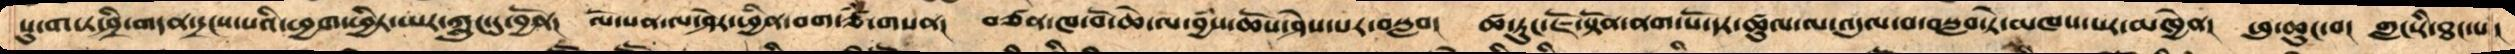སུ་ག་ཏ་ཤྲཱི་གདན་དྲངས་པའི་ཕྱག་ཕྱིར་ཡར་ཀླུང་དུ་བྱོན།  ལོ་པན་ལ་ཤེར་ཕྱིན་བག་ཙཾ་གསན།  བཙན་ཁ་བོ་ཆེ་ལ་་བྱཾས་ཆོས་ཤེས་པར་བསླབ།  ཚ་རུང་ཇོ་སྟོན་ནག་པོ་དར་ཚུལ་ལ་འདུལ་བ་བསླབ་ཏེ་མཁས་པར་མཁྱེན།   ཕུ་ཆུང་བ།  གླང་རི་ཐང་པ།
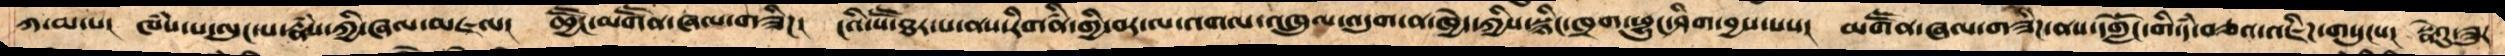ཀ་མ་པ།  ཁཾས་པ་ལུང་པ་རྣཾས་ཀྱི་ཞལ་མཇལ།  ཆྱཽང་མགཽན་ཞལ་གཟིཌ།  ངའི་སཽ་ཐར་པ་ནས་རིགཛིན་གྱི་བར་ལ་འགལ་འཁྲུལ་འདུག་ན་ཁྱེད་ཀྱིས་སྙིང་ཁྲག་ཕྱུང་ཤིག་བྱས་པས།  མགཽན་ཞལ་གཟིཌ་ནས་དགླེངོ་གི་དཾ་བཅའ་འཇིཌ་གསུངས། སྣེའུ་ཟུར་
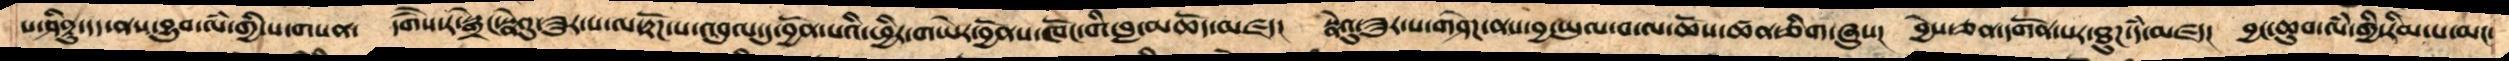པ་ཤིནྟུ་དད་ནས་བྱུབ་ལཾ་གྱི་པ་གསན།  དགཻས་ར་སྒྲེང་སྣེའུ་ཟུར་པ་ལ་རྟོཌ་པ་འབུལ་དུ་བྱོན་པའི་ཕྱིར་གཡེར་བྱོནས་ཁོང་གི་བླ་མཆོད་མཛད།  སྣེའུ་ཟུར་པ་གཤེཌ་ནས་བྱ་ཡུལ་བ་ལ་ཆོས་ཚན་ཅིག་ཞུས།   བྱེས་ཅན་དགོན་པར་ཐུཌ་དཾ་མཛད།   བྱང་ཆུབ་ལཾ་གྱི་རིམ་པ་མང་
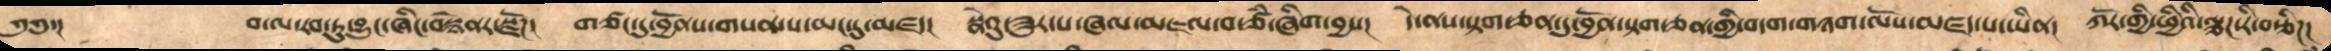༄༅་།     བ་ལ་རབ་ཏུ་བྱུང་ཞིང་བསྙེནར་སྫོཌ།  གཙང་དུ་བྱོནས་གསན་པ་མང་དུ་མཛད།  སྣེའུ་ཟུར་པ་ཞལ་མཇལ་བ་ཙཾ་ཞིག་བྱས།  དེ་ནས་སྟག་ཅན་དུ་བྱོན་སྟག་ཅན་གྱི་བདག་གཉག་ལོས་མཛད་པ་ཡིན། ཀོར་གྱི་ཕྱིའི་ལྕཌ་རི་བརྩིཌ།
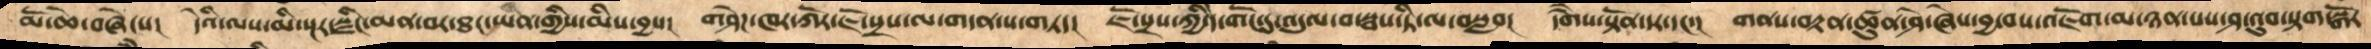མོ་ཆེ་བཞེངས།  དེའི་ལས་མི་སྔར་སྫིང་མན་བར་ཐང་ཡིན་གྱིས་མིས་བྱས།  གཤེཌ་ཁར་ཀོར་ཇོ་སྲས་ལ་གདན་ས་གཏད།  ཇོ་སྲས་ཀྱི་དེ་གོང་དུ་འདུལ་བ་སྦས་ཏི་ལ་བསླབ།  དགཻས་སྟོན་དར་དང་།  གནས་བརྟན་ཚུན་ཤེ་ཞེས་བྱ་བས་འཇོག་མ་ཉན་པས་ཤ་འུབ་སྟག་སྒོར
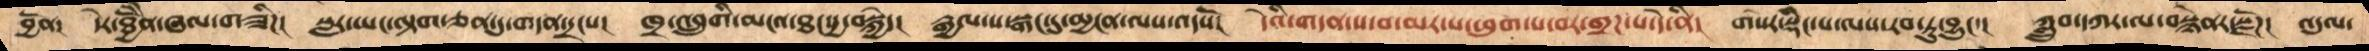བྱོན།  དེར་ཐྱེནོི་ཞལ་གཟིཌ།  སླར་ཡང་ལྟག་ཅན་དུ་གདན་དྲངས།  ཁྲ་འབྲུགི་མངའ་ཐང་དྱ་བསྐྱེད།  རྒྱལ་ས་སྒང་དུ་མྱངན་ལས་འདསོ། དེའི་གདན་ས་བ་མར་པ་ཕུག་པ་བར་གྲཌ་པ་དེ་ནི།  གསེར་སྡིང་པ་ལས་རབ་ཏུ་བྱུང་།  ཀླྲུབ་དཀར་ལ་བསྙེནར་སྫོཌ།  འདུལ་
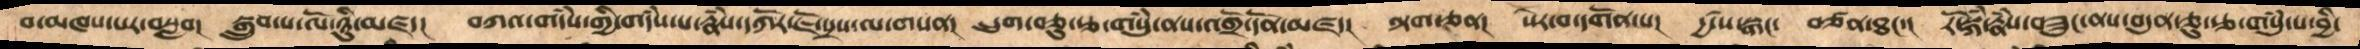བ་མཁས་པར་བསླབ།   སྒྲུབ་པ་ལོ་ཉིུ་མཛད།  བཀའ་གདཾས་གྱི་གདཾས་པ་རྣཾས་དཀོར་ཇོ་སྲས་ལ་གསན།  དྲུག་ཅུ་རྩ་གསུཾ་ནས་འགྲོ་དོན་མཛད།  ལྟག་ཅན།  སེར་བ་དགོན་པ།  དྱཚ་ས་སྒང་  བཙན་ཐང་།   རོ་སྐཾ་རྣཾས་བཟུང་ནས་བདུན་ཅུ་རྩ་གསུཾ་པ་བྱི་
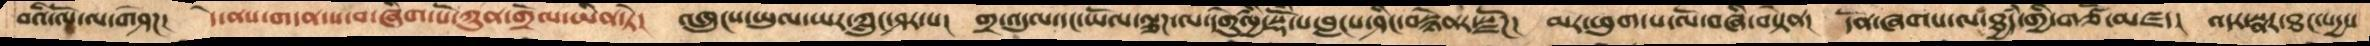བའི་ལོ་ལ་གཤེཌ།  དེ་ནས་གདན་ས་བ་ཞིག་པོ་ཀུན་གྲོལ་ཡིན་ཏེ།   འཁྲུངས་ཡུལ་ཡར་ཀླུང་ཤར་པ།  གྲ་འདུལ་དང་ཡོལ་ལྕཌ་ལ་དགེུལྱི་སྡོཾ་པ་བླངས་ཤིང་བསྙེནར་སྫོཌ།  མར་ཕུག་པ་ལོ་བཞི་བསྟེན།   དོན་ཞགས་ལ་ཐྱདཾ་གྱི་གཙོ་མཛད།   འདར་སྣར་ཐང་སདྱས་
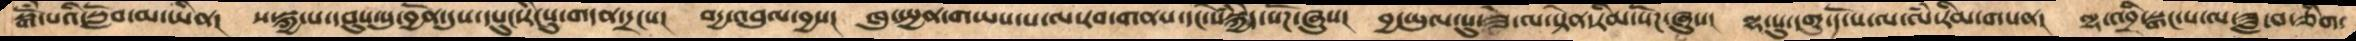སྒོཾ་པའི་ཡང་སློབ་མ་ཡིན།   ས་སྐྱ་པ་དབུས་སུ་བྱོན་དུས་དཔུང་རིངསུ་གདན་དྲངས།  བདྱ་འབུལ་བྱས།   ཁུ་སྤྱན་གཡས་པ་ལ་རབ་གནས་དང་སེཾསྐྱེད་སོཌ་ཞུས།   བྱ་ཡུལ་སུ་ཟེ་ལ་སྟེན་རིམ་སོཌ་ཞུས།  ལྷ་སུ་དགུ་དོ་ས་ལ་ལཾ་རིམ་གསན།  ལྷ་འབྲི་སྒང་པ་ལ་ཟླ་བ་ཅིག་
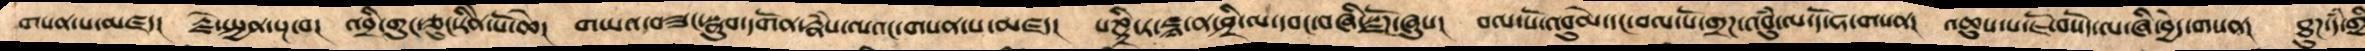གསན་པ་མཛད།   རྗེ་སྤྱན་སྔ་བ།  འབྲི་གུང་ཅུང་རིནེ་པོ་ཆེ།  གཡའ་བཟང་སྣུབ་དགོན་རྣཾས་ལའང་གསན་པ་མཛད།   པཎྜི་ཏ་ཛྙ་ན་ཤྲི་ལ་དབང་བཞི་སྫོཌ་ཞུས།  བལ་པོ་འབུམ་དང་བལ་པོ་གྲཌ་འབུཾ་ལ་དོ་ཧ་གསན།  འཆུས་པ་ཇོ་བསོད་ལ་ཞི་བྱེད་གསན།  ཐུཌ་དཾ་་གྱི
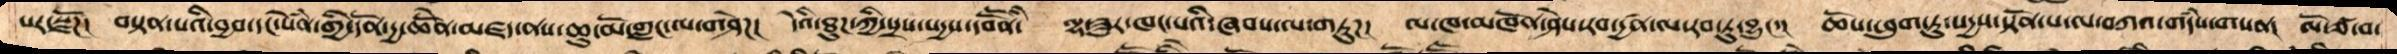པར་སྫོཌ།  བསྟན་པའི་བྱ་བ་དང་སེཾན་གྱི་དོན་དྱ་ཆེནོ་མཛད་ནས་ཆུ་མོ་གླང་ལ་གཤེཌ།  དེའི་ཐུཌ་ཀྱི་སྲས་སདྱས་དབཽནི།  ལྷ་ཟུར་ཁང་པའི་ཞབས་ལ་གཏུཌ།  ལ་ཁ་མཁོན་ཤེས་རབ་དྱཚན་ལ་རབ་ཏུ་བྱུང་།  ཆོས་ཕུག་ཏུ་སདྱས་སྟོན་པ་ལ་བཀའ་གདཾས་གསན།  ལོ་ཙ་བ་
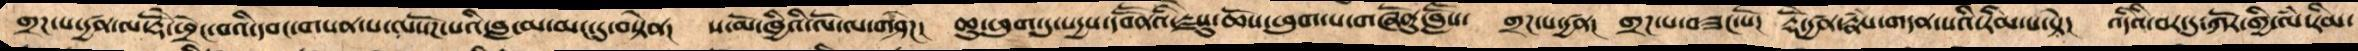གྲཌ་པ་དྱཚན་ལ་རྡོེཕྲེང་བའི་དབང་གསན་པ་ལསོཌ་པ་བླ་མ་མང་དུ་བསྟེན།  ས་ཕོ་ཁྱིའི་ལོ་ལ་གཤེཌ།  ཆོས་ཕུག་དུ་སདྱས་དབོནོའི་རྗེསུ་ཆོས་ཕུག་པ་གཞོནུ་བླཽས།  གྲཌ་པ་དྱཚན།  གྲཌ་པ་བཟང་པོ།  རྡོེ་དྱཚན་རྣཾས་གདན་སའི་རིམ་པ་སྟེ།  འདིའི་བར་དུ་ཀོར་གྱི་ལཾ་རིམ་
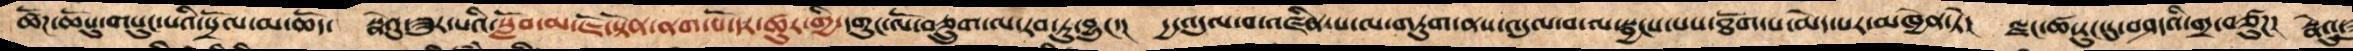ཚོཌ་ཆོསུ་གསུང་པའི་སྲོལ་མ་ཆོད།  སྣེའུ་ཟུར་པའི་སློབ་མ་ཇོ་སྟོན་ནག་པོ་དར་ཚུར་གྱི་དགུང་ལོ་བཅྲུག་ལ་རབ་ཏུ་བྱུང་།  དྱ་འདུལ་བ་འཛིན་པ་ལ་གཏུག་ནས་འདུལ་བ་ལ་སྦྱངས་པས་ཐོག་པ་མེད་པར་མཁྱེན་ཏེ།  ལྗང་ཚ་རུང་དུ་བཤདའི་གྲ་བཙུཌ། སྣེའུ་
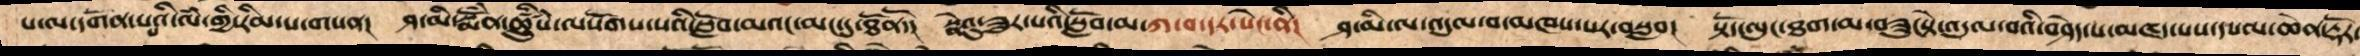པ་ལ་དགོན་པ་པའི་ལཾ་གྱི་རིམ་པ་གསན། ཤ་མི་སྨོཾན་ཚྲིུཾས་ལསོགས་པའི་སློབ་མའང་མང་དུ་ཐོནོ་།  སྣེའུ་ཟུར་པའི་སློབ་མ་ཀ་བ་དར་སེང་ནི། ཤ་མི་ལ་འདུལ་བ་མཁས་པར་བསླབ། སྟོད་ལུང་ཐག་མ་བཟུང་སྟེ་འདུལ་བའི་བཤེད་པ་མཛད་པས་དཔལ་ཆེན་རྡོར་
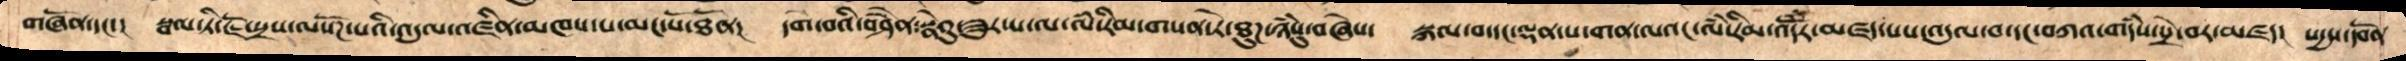གཞོན་དང་།   སྦལ་ཏི་ཇོ་སྲས་ལསོཌ་པའི་འདུལ་འཛིན་མཁས་པ་མང་པོ་ཐོན།  དགེ་བའི་བཤཻན་སྣེའུ་ཟུར་པ་ལ་ལཾ་རིམ་གསན་ཏེ་ཐུཌ་ཉཾསུ་བཞེས།  སྐལ་བ་དང་ལྡན་པ་གན་ལའང་ལཾ་རིམ་འདོཾར་མཛད་པས་འདུལ་བ་དང་བཀའ་གདཾས་སྲེ་བར་མཛད།  སདྱས་དབོན
